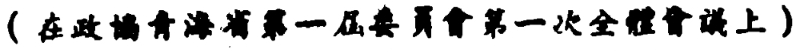（在政協靑海省第一屆委員會第一次全體會議上）
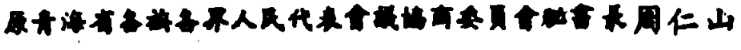原靑海省各族各界人民代表會議協商委員會祕書長周仁山
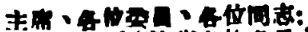主席、各位委員、各位同志：
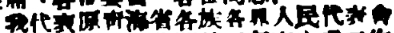我代表原靑海省各族各界人民代表會
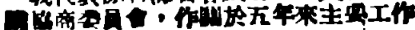議協商委員會，作關於五年來主要工作
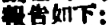報告如下：
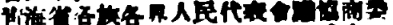靑海省各族各界人民代表會議協商委
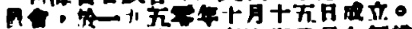員會，於一九五零年是月十五日成立。
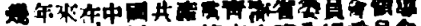幾年來在中國共產黨靑海省委員會領導
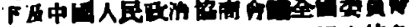下及中國人民政治協商會議全國委員會
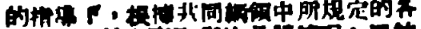的指導下，根據共同綱領中所規定的各
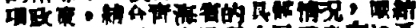項政策，結合靑海省的具體情況，團結
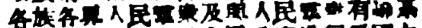各族各界人民羣衆及與人民羣衆有聯繫
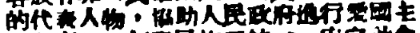的代表人物，協助人民政府進行愛國主
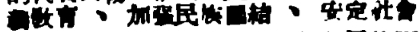義教育 、加強民族團結 、安定社會
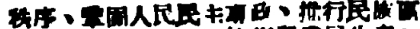秩序、鞏固人民民主專政、推行民族區
